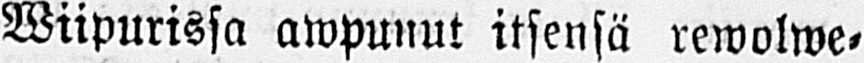Wiipurissa ampunut itsensä rewolwe-
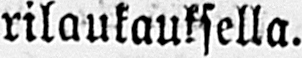rilaukauksella.
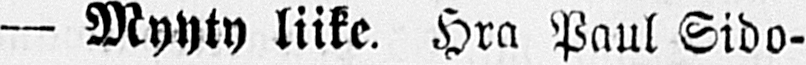— Myyty liike. Hra Paul Sido-
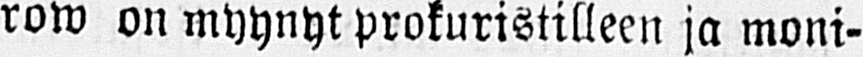row on myynyt prokuristilleen ja moni-
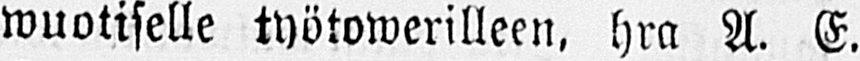wuotiselle työtowerilleen,hra A. E.
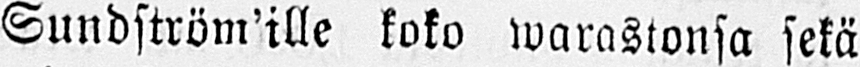Sundström'ille koko warastonsa sekä
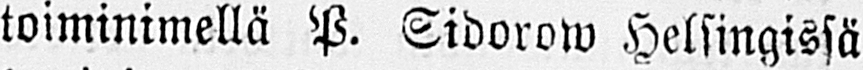toiminimellä P. Sidorow Helsingissä
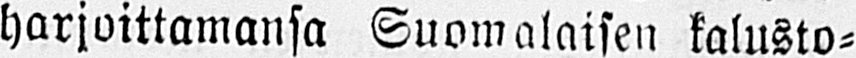harjoittamansa Suomalaisen kalusto-
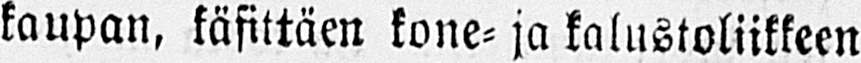kaupan, käsittäen kone- ja kalustoliikkeen
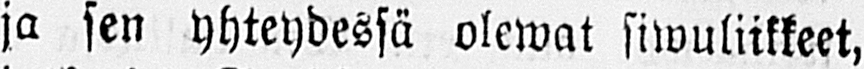ja sen yhteydessä olewat siwuliikkeet,
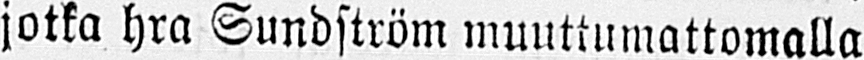jotka hra Sundström muuttumattomalla
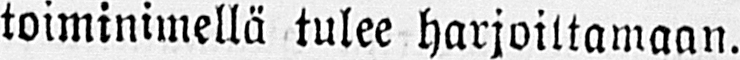toiminimellä tulee harjoittamaan.
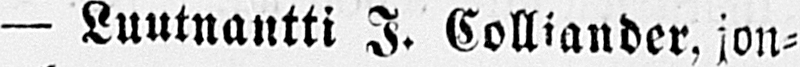— Luutnantti I. Colliander, jon-
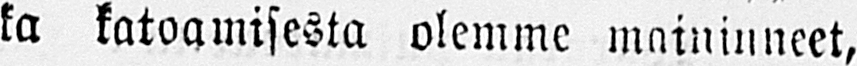ka katoamisesta olemme maininneet,
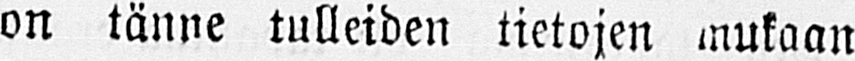on tänne tulleiden tietojen mukaan
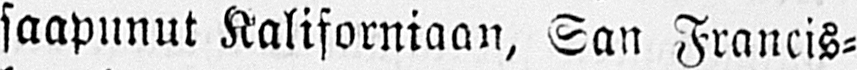saapunut Kaliforniaan, San Francis-
